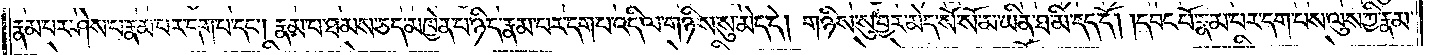རྣམ་པར་ཤེས་པ་རྣམ་པར་དག་པ་དང༌། རྣམ་པ་ཐམས་ཅད་མཁྱེན་པ་ཉིད་རྣམ་པར་དག་པ་འདི་ལ་གཉིས་སུ་མེད་དེ། གཉིས་སུ་བྱར་མེད་སོ་སོ་མ་ཡིན་ཐ་མི་དད་དོ། །དབང་པོ་རྣམ་པར་དག་པས་ལུས་ཀྱི་རྣམ་
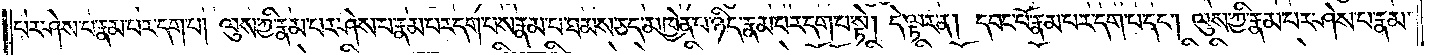པར་ཤེས་པ་རྣམ་པར་དག་པ། ལུས་ཀྱི་རྣམ་པར་ཤེས་པ་རྣམ་པར་དག་པས་རྣམ་པ་ཐམས་ཅད་མཁྱེན་པ་ཉིད་རྣམ་པར་དག་པ་སྟེ། དེ་ལྟར་ན། དབང་པོ་རྣམ་པར་དག་པ་དང༌། ལུས་ཀྱི་རྣམ་པར་ཤེས་པ་རྣམ་
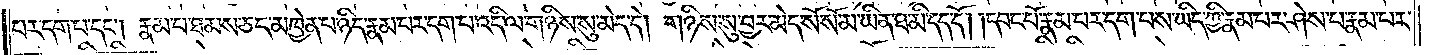པར་དག་པ་དང༌། རྣམ་པ་ཐམས་ཅད་མཁྱེན་པ་ཉིད་རྣམ་པར་དག་པ་འདི་ལ་གཉིས་སུ་མེད་དེ། གཉིས་སུ་བྱར་མེད་སོ་སོ་མ་ཡིན་ཐ་མི་དད་དོ། །དབང་པོ་རྣམ་པར་དག་པས་ཡིད་ཀྱི་རྣམ་པར་ཤེས་པ་རྣམ་པར་
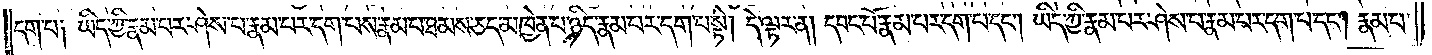དག་པ༑ ཡིད་ཀྱི་རྣམ་པར་ཤེས་པ་རྣམ་པར་དག་པས་རྣམ་པ་ཐམས་ཅད་མཁྱེན་པ་ཉིད་རྣམ་པར་དག་པ་སྟེ། དེ་ལྟར་ན། དབང་པོ་རྣམ་པར་དག་པ་དང༌། ཡིད་ཀྱི་རྣམ་པར་ཤེས་པ་རྣམ་པར་དག་པ་དང༌། རྣམ་པ་
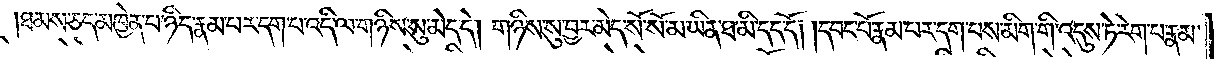ཐམས་ཅད་མཁྱེན་པ་ཉིད་རྣམ་པར་དག་པ་འདི་ལ་གཉིས་སུ་མེད་དེ། གཉིས་སུ་བྱར་མེད་སོ་སོ་མ་ཡིན་ཐ་མི་དད་དོ། །དབང་པོ་རྣམ་པར་དག་པས་མིག་གི་འདུས་ཏེ་རེག་པ་རྣམ་
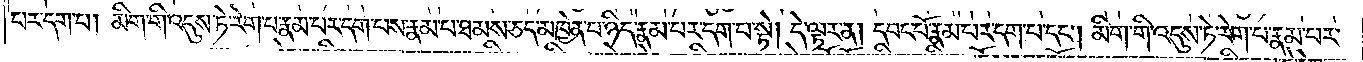པར་དག་པ། མིག་གི་འདུས་ཏེ་རེག་པ་རྣམ་པར་དག་པས་རྣམ་པ་ཐམས་ཅད་མཁྱེན་པ་ཉིད་རྣམ་པར་དག་པ་སྟེ། དེ་ལྟར་ན། དབང་པོ་རྣམ་པར་དག་པ་དང༌། མིག་གི་འདུས་ཏེ་རེག་པ་རྣམ་པར་
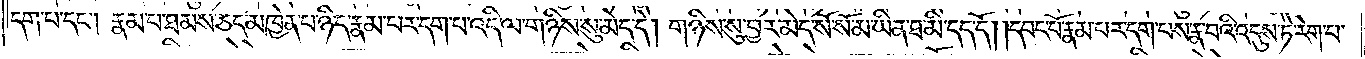དག་པ་དང༌། རྣམ་པ་ཐམས་ཅད་མཁྱེན་པ་ཉིད་རྣམ་པར་དག་པ་འདི་ལ་གཉིས་སུ་མེད་དེ། གཉིས་སུ་བྱར་མེད་སོ་སོ་མ་ཡིན་ཐ་མི་དད་དོ། །དབང་པོ་རྣམ་པར་དག་པས་རྣ་བའི་འདུས་ཏེ་རེག་པ་
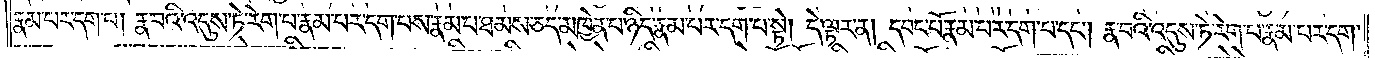རྣམ་པར་དག་པ། རྣ་བའི་འདུས་ཏེ་རེག་པ་རྣམ་པར་དག་པས་རྣམ་པ་ཐམས་ཅད་མཁྱེན་པ་ཉིད་རྣམ་པར་དག་པ་སྟེ། དེ་ལྟར་ན། དབང་པོ་རྣམ་པར་དག་པ་དང༌། རྣ་བའི་འདུས་ཏེ་རེག་པ་རྣམ་པར་དག་
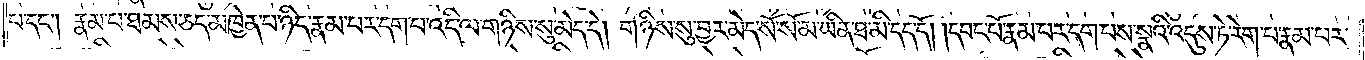པ་དང༌། རྣམ་པ་ཐམས་ཅད་མཁྱེན་པ་ཉིད་རྣམ་པར་དག་པ་འདི་ལ་གཉིས་སུ་མེད་དེ། གཉིས་སུ་བྱར་མེད་སོ་སོ་མ་ཡིན་ཐ་མི་དད་དོ། །དབང་པོ་རྣམ་པར་དག་པས་སྣའི་འདུས་ཏེ་རེག་པ་རྣམ་པར་
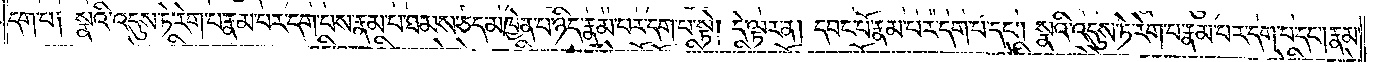དག་པ༑ སྣའི་འདུས་ཏེ་རེག་པ་རྣམ་པར་དག་པས་རྣམ་པ་ཐམས་ཅད་མཁྱེན་པ་ཉིད་རྣམ་པར་དག་པ་སྟེ། དེ་ལྟར་ན། དབང་པོ་རྣམ་པར་དག་པ་དང༌། སྣའི་འདུས་ཏེ་རེག་པ་རྣམ་པར་དག་པ་དང༌། རྣམ་
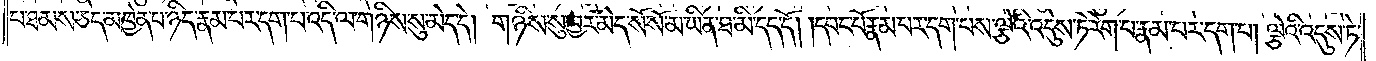པ་ཐམས་ཅད་མཁྱེན་པ་ཉིད་རྣམ་པར་དག་པ་འདི་ལ་གཉིས་སུ་མེད་དེ། གཉིས་སུ་བྱར་མེད་སོ་སོ་མ་ཡིན་ཐ་མི་དད་དོ། །དབང་པོ་རྣམ་པར་དག་པས་ལྕེའི་འདུས་ཏེ་རེག་པ་རྣམ་པར་དག་པ། ལྕེའི་འདུས་ཏེ་
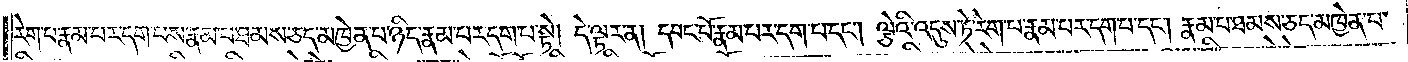རེག་པ་རྣམ་པར་དག་པས་རྣམ་པ་ཐམས་ཅད་མཁྱེན་པ་ཉིད་རྣམ་པར་དག་པ་སྟེ། དེ་ལྟར་ན། དབང་པོ་རྣམ་པར་དག་པ་དང༌། ལྕེའི་འདུས་ཏེ་རེག་པ་རྣམ་པར་དག་པ་དང༌། རྣམ་པ་ཐམས་ཅད་མཁྱེན་པ་
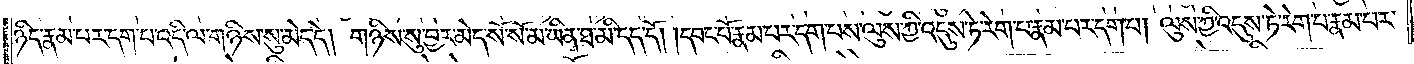ཉིད་རྣམ་པར་དག་པ་འདི་ལ་གཉིས་སུ་མེད་དེ། གཉིས་སུ་བྱར་མེད་སོ་སོ་མ་ཡིན་ཐ་མི་དད་དོ། །དབང་པོ་རྣམ་པར་དག་པས་ལུས་ཀྱི་འདུས་ཏེ་རེག་པ་རྣམ་པར་དག་པ། ལུས་ཀྱི་འདུས་ཏེ་རེག་པ་རྣམ་པར་
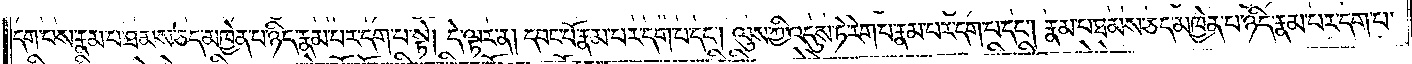དག་པས་རྣམ་པ་ཐམས་ཅད་མཁྱེན་པ་ཉིད་རྣམ་པར་དག་པ་སྟེ། དེ་ལྟར་ན། དབང་པོ་རྣམ་པར་དག་པ་དང༌། ལུས་ཀྱི་འདུས་ཏེ་རེག་པ་རྣམ་པར་དག་པ་དང༌། རྣམ་པ་ཐམས་ཅད་མཁྱེན་པ་ཉིད་རྣམ་པར་དག་པ་
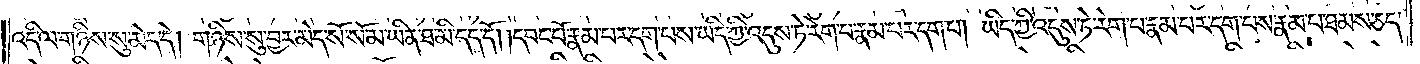འདི་ལ་གཉིས་སུ་མེད་དེ། གཉིས་སུ་བྱར་མེད་སོ་སོ་མ་ཡིན་ཐ་མི་དད་དོ། །དབང་པོ་རྣམ་པར་དག་པས་ཡིད་ཀྱི་འདུས་ཏེ་རེག་པ་རྣམ་པར་དག་པ། ཡིད་ཀྱི་འདུས་ཏེ་རེག་པ་རྣམ་པར་དག་པས་རྣམ་པ་ཐམས་ཅད་
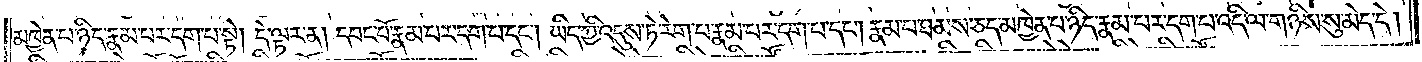མཁྱེན་པ་ཉིད་རྣམ་པར་དག་པ་སྟེ། དེ་ལྟར་ན། དབང་པོ་རྣམ་པར་དག་པ་དང༌། ཡིད་ཀྱི་འདུས་ཏེ་རེག་པ་རྣམ་པར་དག་པ་དང༌། རྣམ་པ་ཐམས་ཅད་མཁྱེན་པ་ཉིད་རྣམ་པར་དག་པ་འདི་ལ་གཉིས་སུ་མེད་དེ།
